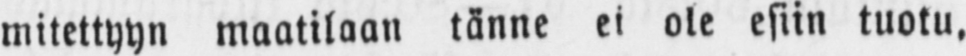mitettyyn maatilaan tänne ei ole esiin tuotu,
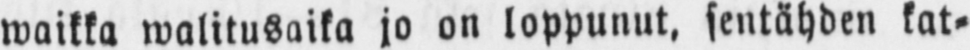waikka walitusaika jo on loppunut, sentähden kat-
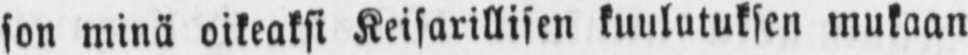son minä oikeaksi Keisarillisen kuulutuksen mukaan
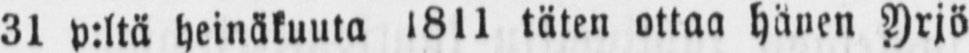31 p:ltä heinäkuuta 18l1 täten ottaa hänen Yrjö
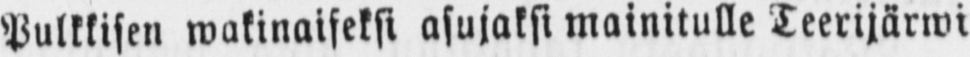Pulkkisen wakinaiseksi asujaksi mainitulle Teerijärwi
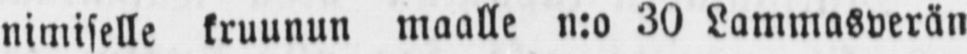nimiselle kruunun maalle n:o 30 Lammasperän
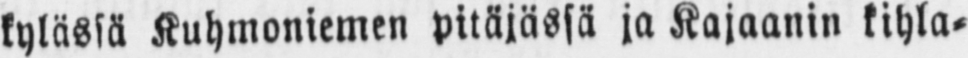kylässä Kuhmoniemen pitäjässä ja Kajaanin kihla-
